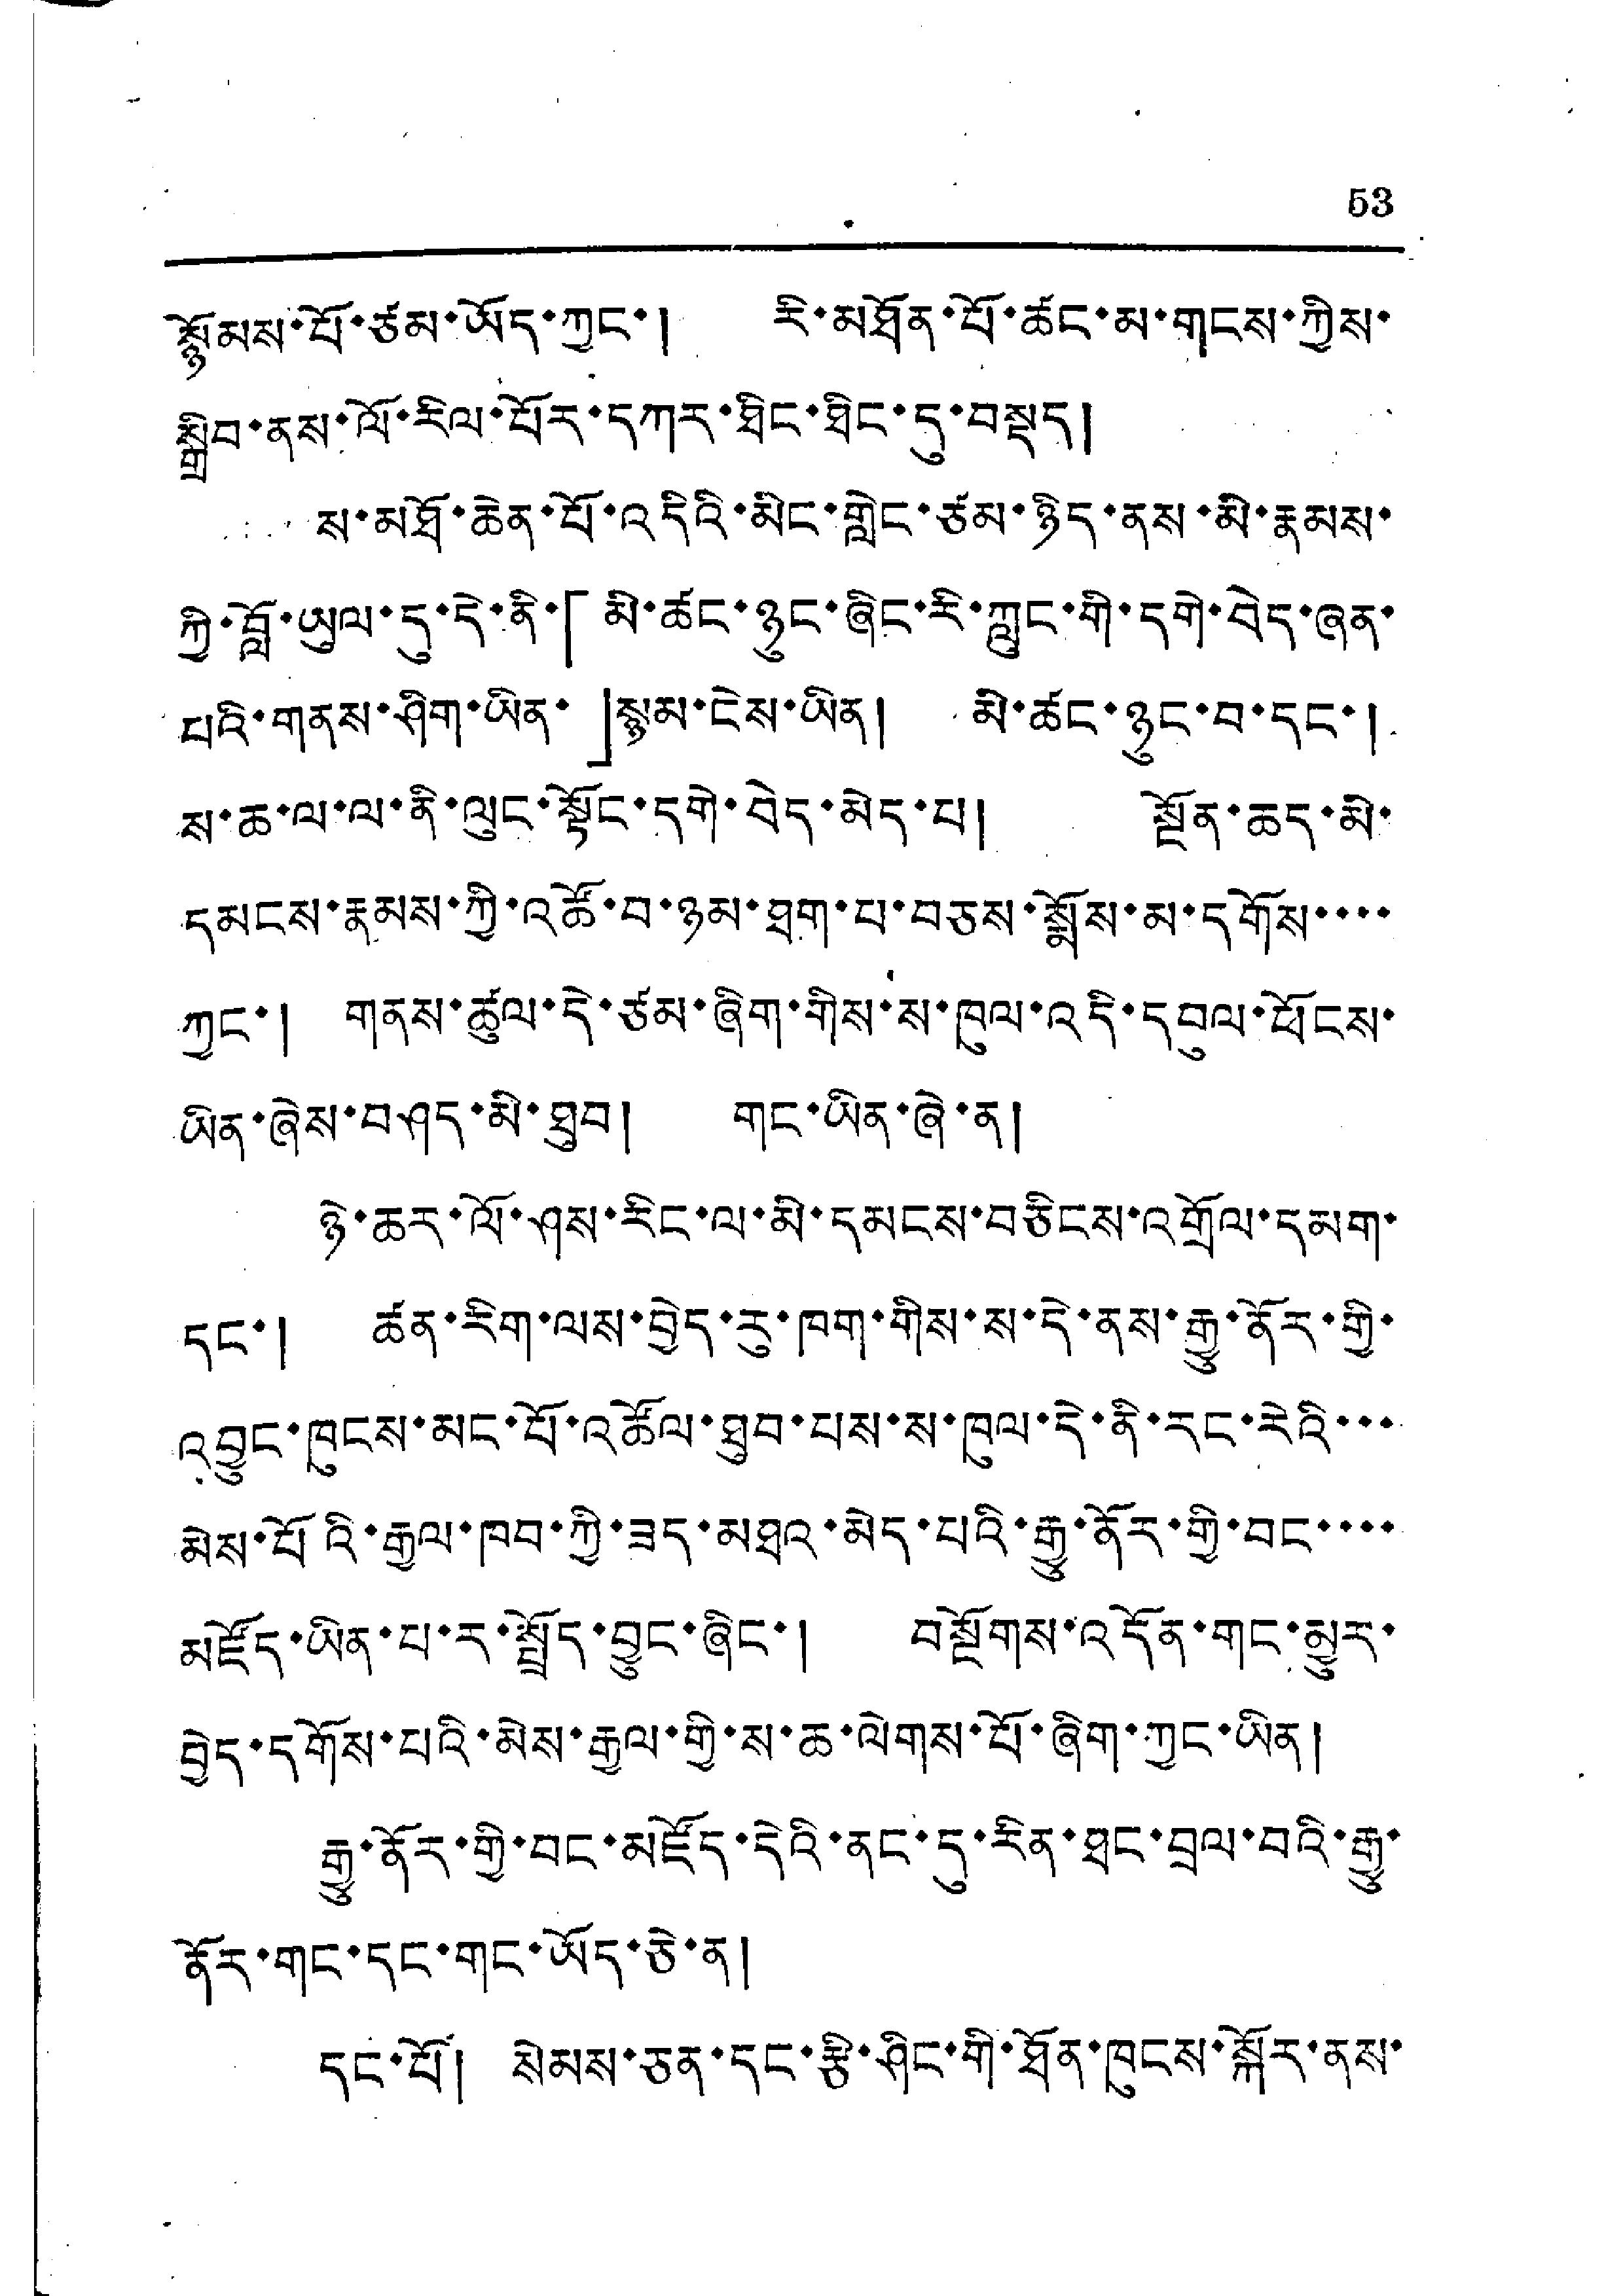53
སྙོམས་པོ་ཙམ་ཡོད་ཀྱང་། རི་མཐོན་པོ་ཚང་མ་གངས་ཀྱིས་
སྒྲིབ་ནས་ལོ་རིལ་པོར་དཀར་ཐིང་ཐིང་དུ་བསྡད།
ས་མཐོ་ཆེན་པོ་འདིའི་མིང་གླེང་ཙམ་ཉིད་ནས་མི་རྣམས་
ཀྱི་བློ་ཡུལ་དུ་དེ་ནི་「མི་ཚང་ཉུང་ཞིང་རི་ཀླུང་གི་དགེ་བེད་ཞན་
པའི་གནས་ཤིག་ཡིན་」སྙམ་ངེས་ཡིན། མི་ཚང་ཉུང་བ་དང་།
སུ་ཆ་ལ་ལ་ནི་ལུང་སྟོང་དགེ་བེད་མེད་པ། སྔོན་ཆད་མི་
དམངས་རྣམས་ཀྱི་འཚོ་བ་ཉམ་ཐག་པ་བཅས་སྨོས་མ་དགོས་་་་
ཀྱང་། གནས་ཚུལ་དེ་ཙམ་ཞིག་གིས་ས་ཁུལ་འདི་དབུལ་ཕོངས་
ཡིན་ཞེས་བཤད་མི་ཐུབ། གང་ཡིན་ཞེ་ན།
ཉེ་ཆར་ལོ་ཤས་རིང་ལ་མི་དམངས་བཅིངས་འགྲོལ་དམག་
དང་། ཚན་རིག་ལས་བྱེད་རུ་ཁག་གིས་ས་དེ་ནས་རྒྱུ་ནོར་གྱི་
འབྱུང་ཁུངས་མང་པོ་འཚོལ་ཐུབ་པས་ས་ཁུལ་དེ་ནི་རང་རེའི་་་
མེས་པོའི་རྒྱལ་ཁབ་ཀྱི་ཟད་མཐའ་མེད་པའི་རྒྱུ་ནོར་གྱི་བང་་་་
མཛོད་ཡིན་པ་ར་སྤྲོད་བྱུང་ཞིང་། བསྔོགས་འདོན་གང་མྱུར་
བྱེད་དགོས་པའི་མེས་རྒྱལ་གྱི་ས་ཆ་ལེགས་པོ་ཞིག་ཀྱང་ཡིན།
རྒྱུ་ནོར་གྱི་བང་མཛོད་དེའི་ནང་དུ་རིན་ཐང་བྲལ་བའི་རྒྱུ་
ནོར་གང་དང་གང་ཡོད་ཅེ་ན།
དང་པོ། སེམས་ཅན་དང་རྩི་ཤིང་གི་ཐོན་ཁུངས་སྐོར་ནས་
